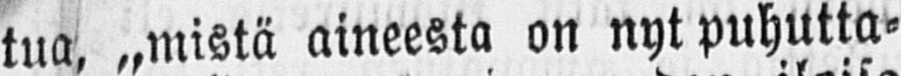tua, „mistä aineesta on nyt puhutta-
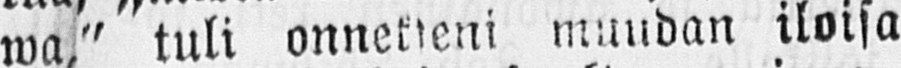wa" tuli onnekseni muudan iloisa
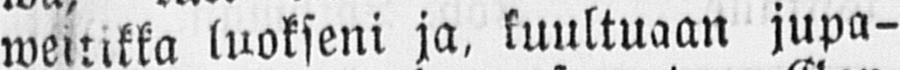weitikka luokseni ja, kuultuaan jupa-
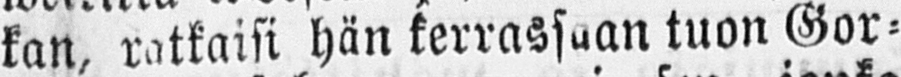kan, ratkaisi hän kerrassaan tuon Gor-
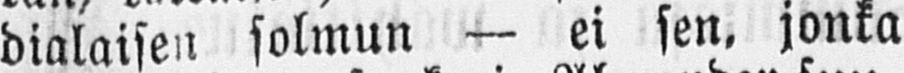dialaisen solmun — ei sen, jonka
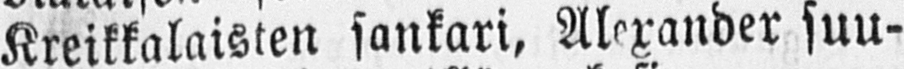Kreikkalaisten sankan, Alexander suu-
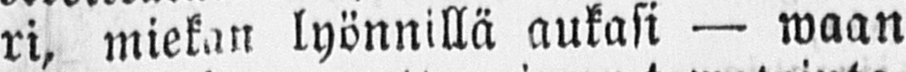ri, miekan lyönnillä aukasi — waan
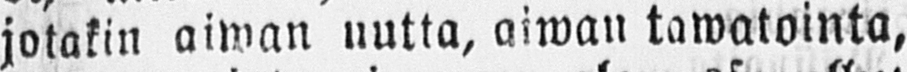jotakin aiwan uutta, aiwan tawatointa,
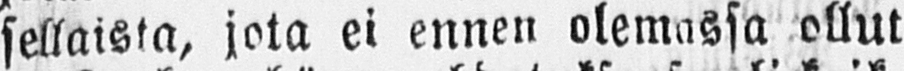sellaista, jota ei ennen olemassa ollut
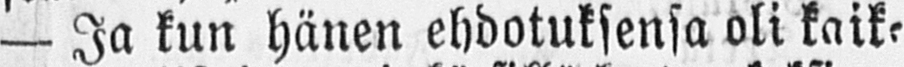— Ja kun hänen ehdotuksensa oli kaik-
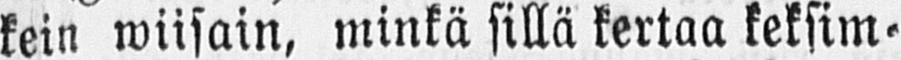kein wiisain, minkä sillä kertaa keksim-
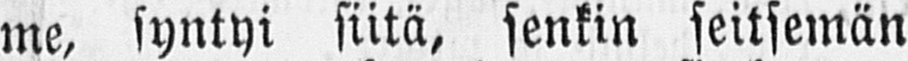me, syntyi siitä, senkin seitsemän
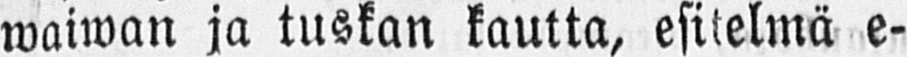waiwan ja tuskan kautta, esitelmä e-
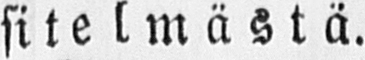sitelmästä.
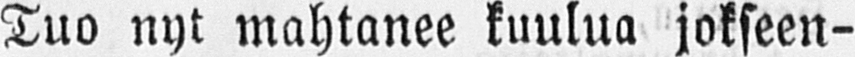Tuo nyt mahtanee kuulua jokseen-
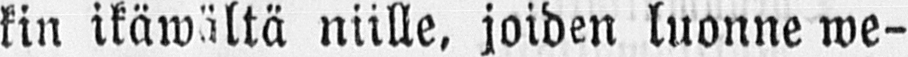kin ikäwältä niille, joiden luonne we-
